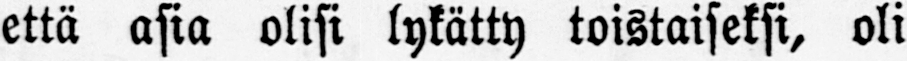että asia olisi lykätty toistaiseksi, oli
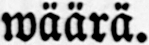wäärä.
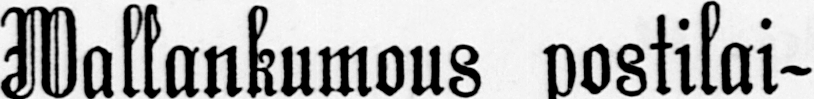Wallankumous postilai-
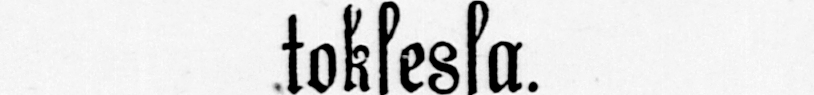toksessa.
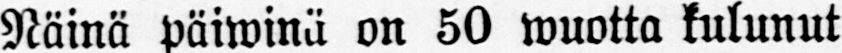Näinä päiwinä on 50 wuotta kulunut
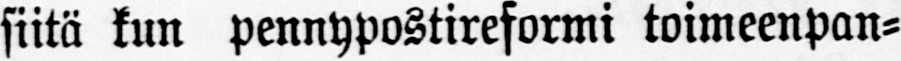siitä kun pennypostireformi toimeenpan-
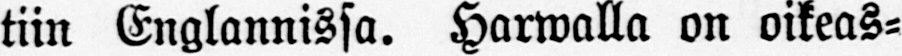tiin Englannissa. Harwalla on oikeas-
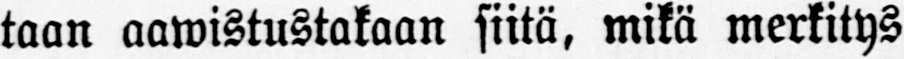taan aawistustakaan siitä, mikä merkitys
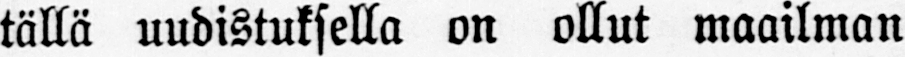tällä uudistuksella on ollut maailman
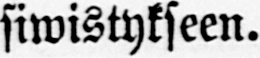siwistykseen.
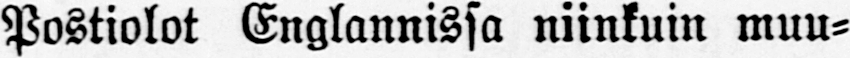Postiolot Englannissa niinkuin muu-
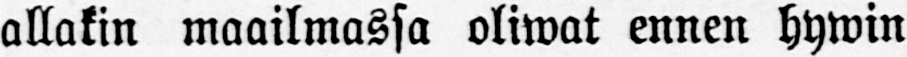allakin maailmassa oliwat ennen hywin
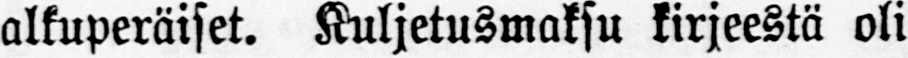alkuperäiset. Kuljetusmaksu kirjeestä oli
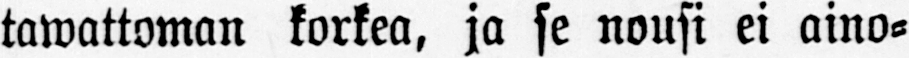tawattoman korkea, ja se nousi ei aino-
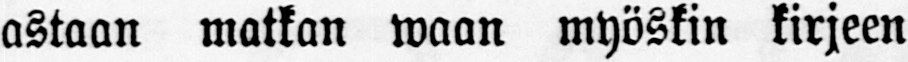astaan matkan waan myöskin kirjeen
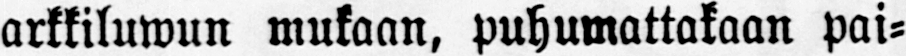arkkiluwun mukaan, puhumattakaan pai-
